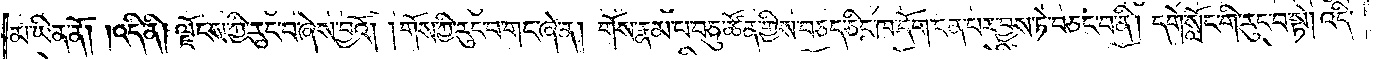མ་ཡིན་ནོ། །འདི་ནི། ལྗོངས་ཀྱི་རུང་བ་ཞེས་བྱའོ། །གོས་ཀྱི་རུང་བ་གང་ཞེ་ན། གོས་རྣམ་པ་བཅུ་ཚོན་གྱིས་བཅད་ཅིང་ཁ་དོག་ངན་པར་བྱས་ཏེ་བཅང་བ་ནི། དགེ་སློང་གི་རུང་བ་སྟེ། འདི་
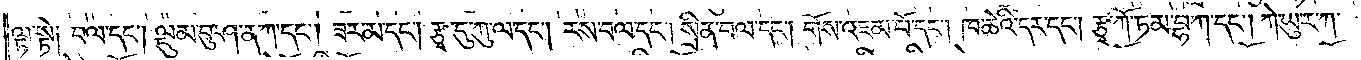ལྟ་སྟེ། བལ་དང༌། ལྡུམ་བུ་ཤ་ན་ཀ་དང༌། ཟར་མ་དང༌། རྩྭ་དུ་ཀུ་ལ་དང༌། རས་བལ་དང༌། སྲིན་བལ་དང༌། གོས་འཇམ་པོ་དང༌། ཁ་ཆེའི་དར་དང༌། རྩྭ་ཀོ་ཏམ་བྷ་ཀ་དང༌། ཀེ་ཡུ་ར་ཀ་
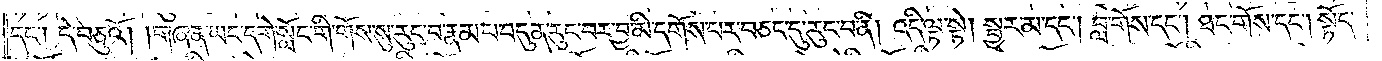དང༌། དེ་བཅུའོ། །གཞན་ཡང་དགེ་སློང་གི་གོས་སུ་རུང་བ་རྣམ་པ་བདུན་རུང་བར་བྱ་མི་དགོས་པར་བཅང་དུ་རུང་བ་ནི། འདི་ལྟ་སྟེ། སྦྱར་མ་དང༌། བླ་གོས་དང༌། ཐང་གོས་དང༌། སྟོད་
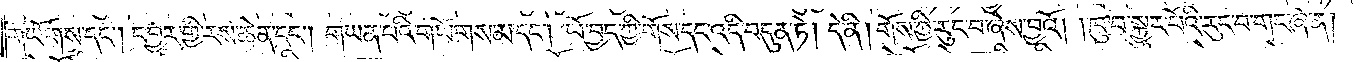གཡོགས་དང༌། དབྱར་གྱི་རས་ཆེན་དང༌། གཡན་པའི་གཡོགས་མ་དང༌། ཡོ་བྱད་ཀྱི་གོས་དང་འདི་བདུན་ཏེ། དེ་ནི། གོས་ཀྱི་རུང་བ་ཞེས་བྱའོ། །ཁུ་བ་སྐྱུར་པོའི་རུང་བ་གང་ཞེ་ན།
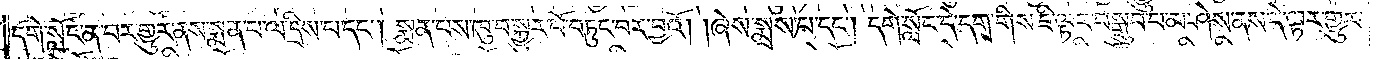དགེ་སློང་ན་བར་གྱུར་ནས་སྨན་པ་ལ་དྲིས་པ་དང༌། སྨན་པས་ཁུ་བ་སྐྱུར་པོ་བཏུང་བར་བྱའོ། །ཞེས་སྨྲས་པ་དང༌། དགེ་སློང་དེ་དག་གིས་ཇི་ལྟར་བསྒྲུབ་པ་མ་ཤེས་ནས་དེ་ལྟར་གྱུར་
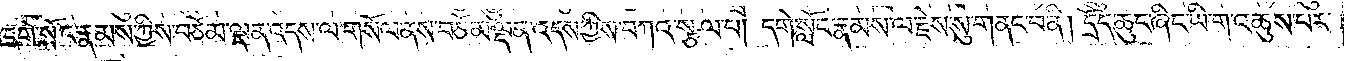དགེ་སློང་རྣམས་ཀྱིས་བཅོམ་ལྡན་འདས་ལ་གསོལ་ནས་བཅོམ་ལྡན་འདས་ཀྱིས་བཀའ་སྩལ་པ། དགེ་སློང་རྣམས་ལ་རྗེས་སུ་གནང་བ་ནི། དྲོད་ཆུང་ཞིང་ཡི་ག་འཆུས་པར་
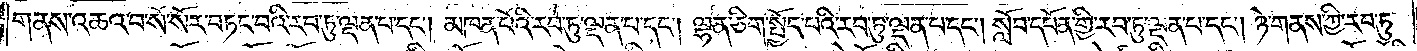གནས་འཆའ་བ་སོ་སོར་བཏང་བའི་རབ་ཏུ་ལྡན་པ་དང༌། མཁན་པོའི་རབ་ཏུ་ལྡན་པ་དང༌། ལྷན་ཅིག་སྤྱོད་པའི་རབ་ཏུ་ལྡན་པ་དང༌། སློབ་དཔོན་གྱི་རབ་ཏུ་ལྡན་པ་དང༌། ཉེ་གནས་ཀྱི་རབ་ཏུ་
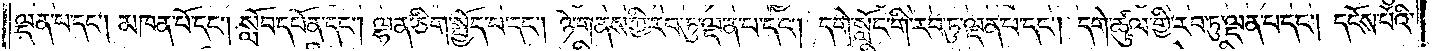ལྡན་པ་དང༌། མཁན་པོ་དང༌། སློབ་དཔོན་དང༌། ལྷན་ཅིག་སྤྱོད་པ་དང༌། ཉེ་གནས་ཀྱི་རབ་ཏུ་ལྡན་པ་དང༌། དགེ་སློང་གི་རབ་ཏུ་ལྡན་པ་དང༌། དགེ་ཚུལ་གྱི་རབ་ཏུ་ལྡན་པ་དང༌། དངོས་པོའི་
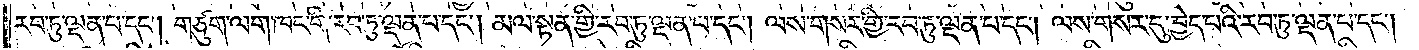རབ་ཏུ་ལྡན་པ་དང༌། གཙུག་ལག་ཁང་གི་རབ་ཏུ་ལྡན་པ་དང༌། མལ་སྟན་གྱི་རབ་ཏུ་ལྡན་པ་དང༌། ལས་གསར་གྱི་རབ་ཏུ་ལྡན་པ་དང༌། ལས་གསར་དུ་བྱེད་པའི་རབ་ཏུ་ལྡན་པ་དང༌།
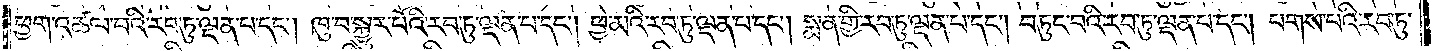ཕྱག་འཚལ་བའི་རབ་ཏུ་ལྡན་པ་དང༌། ཁུ་བ་སྐྱུར་པོའི་རབ་ཏུ་ལྡན་པ་དང༌། ཕྱེ་མའི་རབ་ཏུ་ལྡན་པ་དང༌། སྨན་གྱི་རབ་ཏུ་ལྡན་པ་དང༌། བཏུང་བའི་རབ་ཏུ་ལྡན་པ་དང༌། པགས་པའི་རབ་ཏུ་
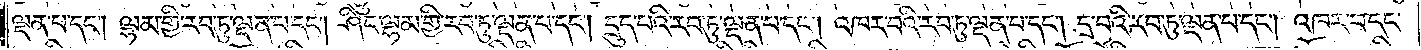ལྡན་པ་དང༌། ལྷམ་གྱི་རབ་ཏུ་ལྡན་པ་དང༌། ཤིང་ལྷམ་གྱི་རབ་ཏུ་ལྡན་པ་དང༌། དྲུད་པའི་རབ་ཏུ་ལྡན་པ་དང༌། འཁར་བའི་རབ་ཏུ་ལྡན་པ་དང༌། དྲ་བའི་རབ་ཏུ་ལྡན་པ་དང༌། འཁར་བ་དང་
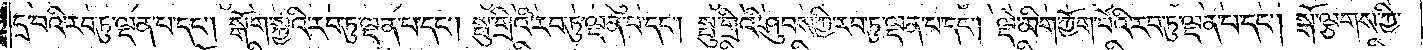དྲ་བའི་རབ་ཏུ་ལྡན་པ་དང༌། སྒོག་སྐྱའི་རབ་ཏུ་ལྡན་པ་དང༌། སྤུ་གྲིའི་རབ་ཏུ་ལྡན་པ་དང༌། སྤུ་གྲིའི་ཤུབས་ཀྱི་རབ་ཏུ་ལྡན་པ་དང༌། ལྡེ་མིག་ཀྱོག་པོའི་རབ་ཏུ་ལྡན་པ་དང༌། སྒོ་ལྕགས་ཀྱི་
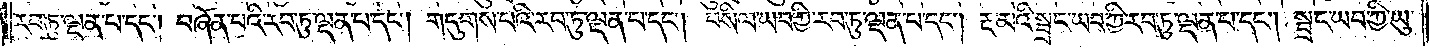རབ་ཏུ་ལྡན་པ་དང༌། བཞོན་པའི་རབ་ཏུ་ལྡན་པ་དང༌། གདུགས་པའི་རབ་ཏུ་ལྡན་པ་དང༌། བསིལ་ཡབ་ཀྱི་རབ་ཏུ་ལྡན་པ་དང༌། རྔ་མའི་སྦྲང་ཡབ་ཀྱི་རབ་ཏུ་ལྡན་པ་དང༌། སྦྲང་ཡབ་ཀྱི་ཡུ་
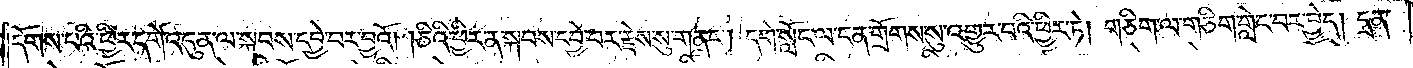དོགས་པའི་ཕྱིར་དགེ་འདུན་ལ་སྐབས་དབྱེ་བར་བྱའོ། །ཅིའི་ཕྱིར་ན་སྐབས་དབྱེ་བར་རྗེས་སུ་གནང༌། དགེ་སློང་ལ་ངན་གྲོགས་སུ་འགྱུར་བའི་ཕྱིར་ཏེ། གཅིག་ལ་གཅིག་གླེང་བར་བྱེད། དྲན་
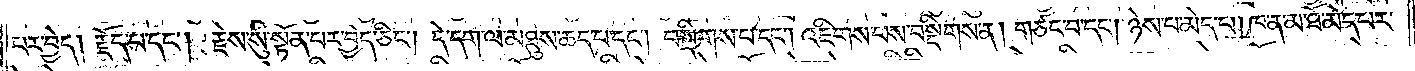པར་བྱེད། རྗོད་པ་དང༌། རྗེས་སུ་སྟོན་པར་བྱེད་ཅིང༌། དེ་དག་ལ་མཐུས་ཆད་པ་དང༌། བསྡིགས་པ་དང༌། འཇིགས་པས་བསྡིགས་ན། གཙང་བ་དང༌། ཉེས་པ་མེད་པ། ཁ་ན་མ་ཐོ་མེད་པར་
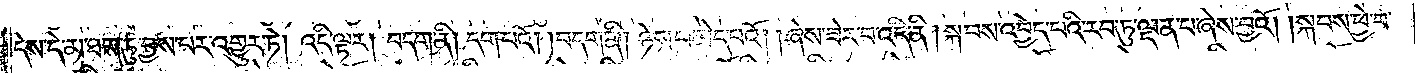དེས་དེ་མ་ཐག་ཏུ་བྱས་པར་འགྱུར་ཏེ། འདི་ལྟར། བདག་ནི། དག་པའོ། །བདག་ནི། ཉེས་པ་མེད་པའོ། །ཞེས་ཟེར་བ་འདི་ནི། སྐབས་འབྱེད་པའི་རབ་ཏུ་ལྡན་པ་ཞེས་བྱའོ། །སྐབས་ཕྱེ་བ་
